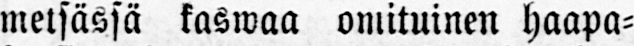metsässä kaswaa omituinen haapa-
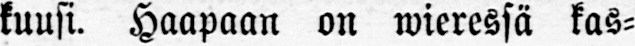kuusi. Haapaan on wieressä kas-
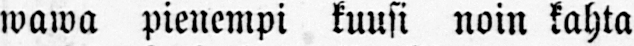wawa pienempi kuusi noin kahta
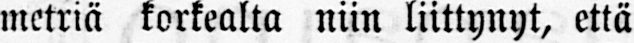metriä korkealta niin liittynyt, että
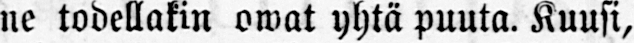ne todellakin owat yhtä puuta. Kuusi,
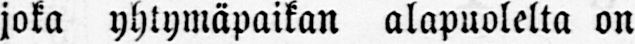joka yhtymäpaikan alapuolelta on
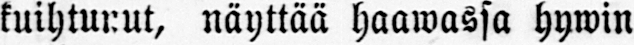kuihtunut, näyttää haawassa hywin
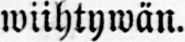wiihtywän.
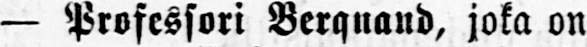— Professori Berquand, joka on
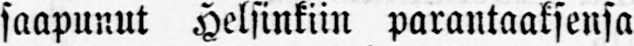saapunut Helsinkiin parantaaksensa
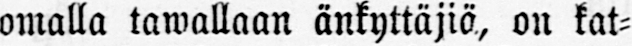omalla tawallaan änkyttäjiä, on kat-
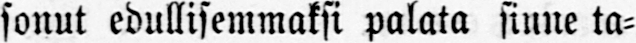sonut edullisemmaksi palata sinne ta-
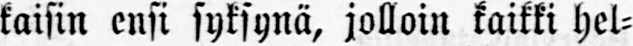kaisin ensi syksynä, jolloin kaikki hel-
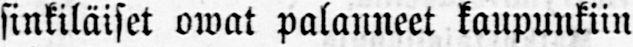sinkiläiset owat palanneet kaupunkiin
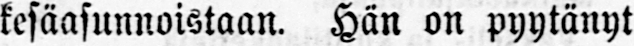kesäasunnoistaan. Hän on pyytänyt
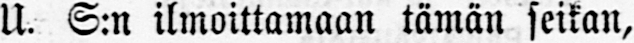U. S:n ilmoittamaan tämän seikan,
